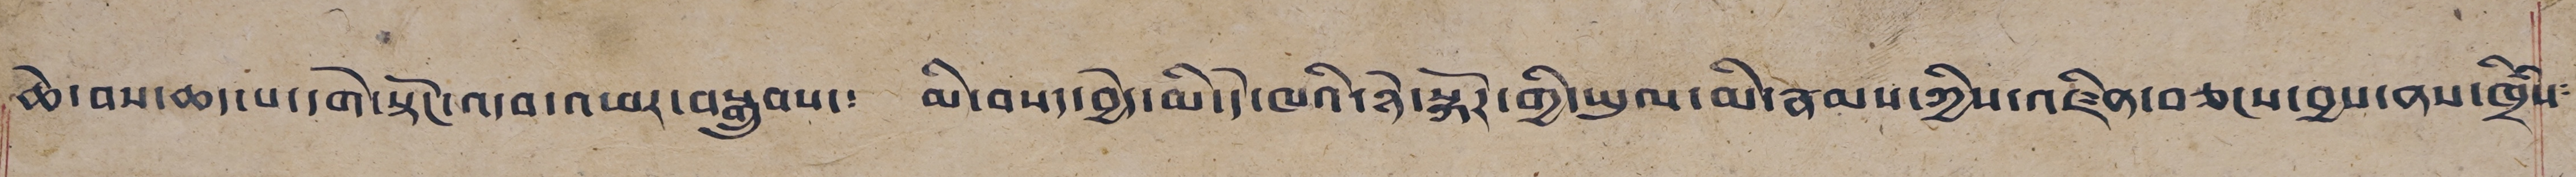ཆེ་བས་ཆད་པ་དགེ་སྟོང་འདབ་འཕར་བསྒྲུབས་༴ མི་བསད་བྱེད་མི་དེ་ཁའི་ཉེ་སྐོར་གྱི་ཡུལ་མི་རྣམས་ཀྱིས་འཛིན་བཅངས་བྱས་ནས་ཁྲིཾས༴
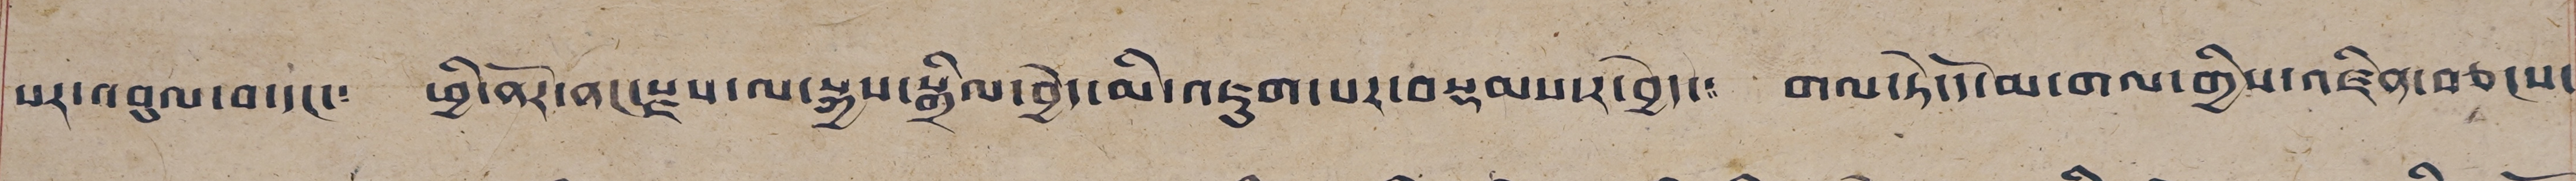པར་འབུལ་བ་དང་༴ ཕྱི་ནོར་ནང་རྫས་ལ་སྐྱས་སྒྲིལ་བྱེད་མི་འཇུག་པར་བསྡམས་ར་བྱེད་༴ གལ་ཏེ་དོ་མ་གལ་གྱིས་འཛིན་བཅངས་
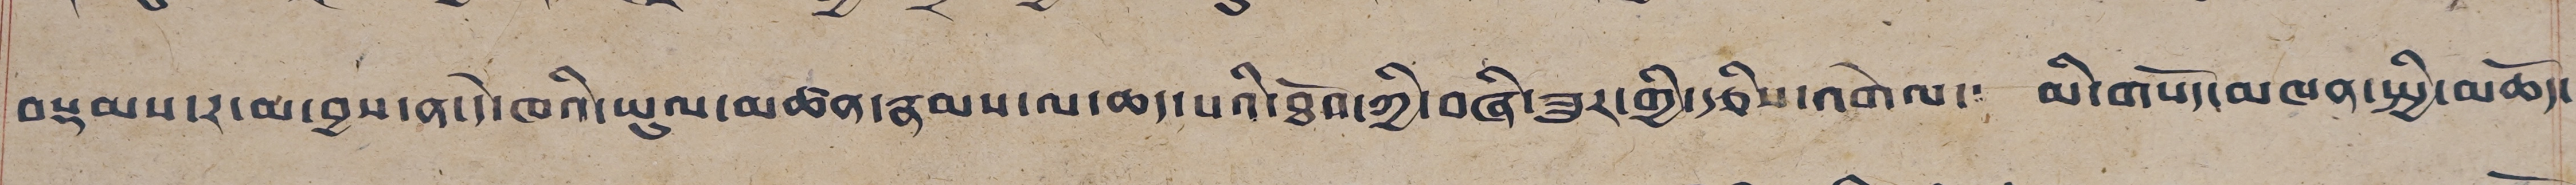བསྡམས་ར་མ་བྱས་ན་དེ་ཁའི་ཡུལ་མཚན་རྣམས་ལ་ཆད་པའི་ཐོབ་ཀྱི་བཞི་ཟུར་གྱི་རྩིས་འགེལ་༴ མི་གསོད་མཁན་སྤྱི་མཆོད་
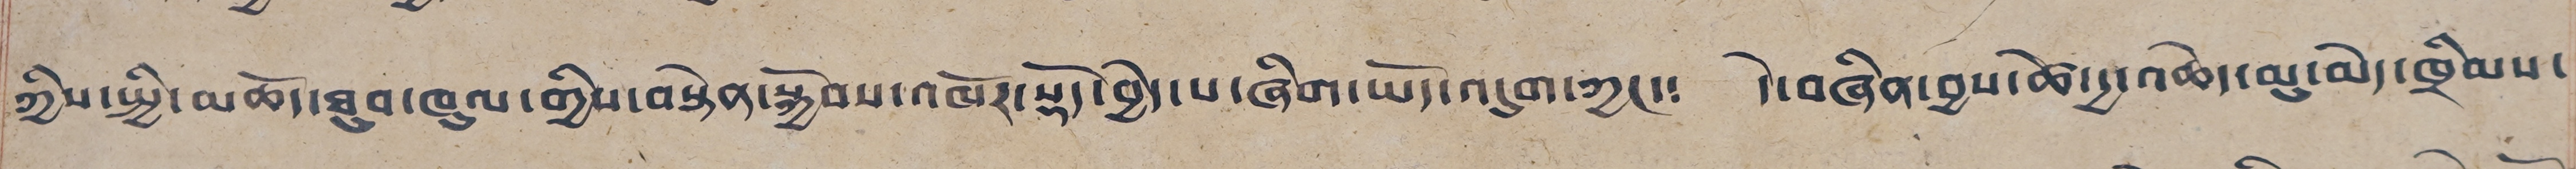ཀྱིས་སྤྱི་མཆོད་ཐུབ་ཁུལ་གྱིས་བསྟེན་སྐྱོབས་འཁོར་སྡོད་བྱེད་པ་ཞིག་ཡོད་འདུག་ཀྱང་༴ དེ་བཞིན་བྱས་ཚེ་དྱ་འཆེད་མུ་མེད་ཁྲིམས་
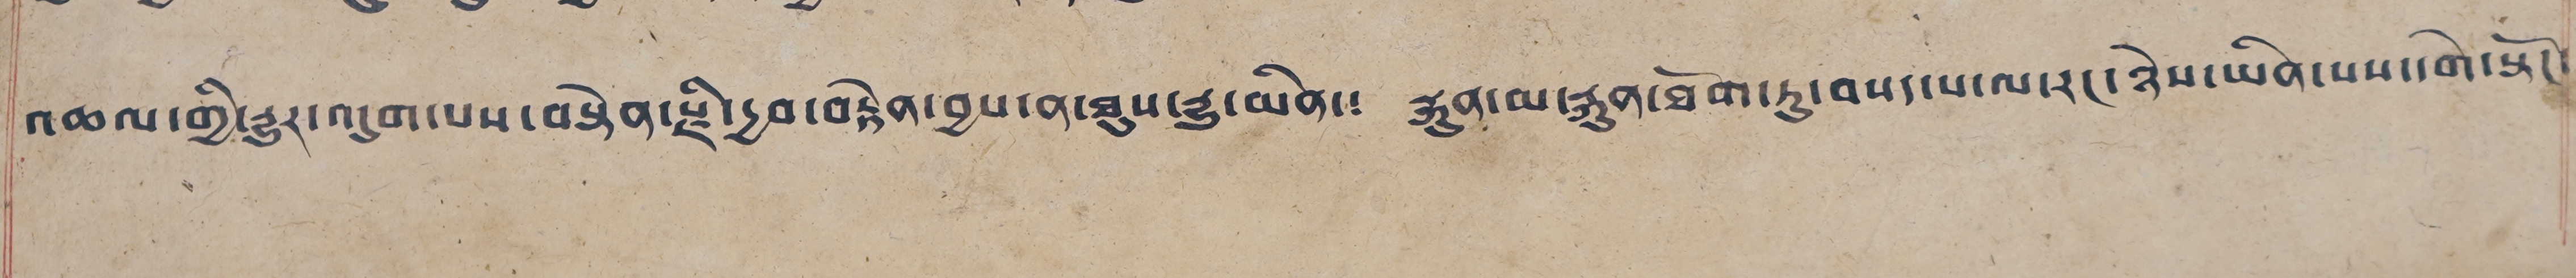འཆལ་གྱི་རྒྱུར་འདུག་པས་བསྟེན་རྫི་དྱབ་བརྟེན་བྱས་ན་ཐུས་རྒྱུ་མིན་༴ རྐུན་མ་རྐུན་ཐོག་ཏུ་བསད་པ་ལ་རང་ཉེས་ཡིན་པས་དགེ་སྟོང་
